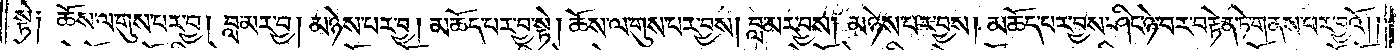སྟེ༑ ཆོས་ལ་གུས་པར་བྱ། བླ་མར་བྱ། མཉེས་པར་བྱ། མཆོད་པར་བྱ་སྟེ། ཆོས་ལ་གུས་པར་བྱས། བླ་མར་བྱས། མཉེས་པར་བྱས། མཆོད་པར་བྱས་ཤིང་ཉེ་བར་བརྟེན་ཏེ་གནས་པར་བྱའོ། །
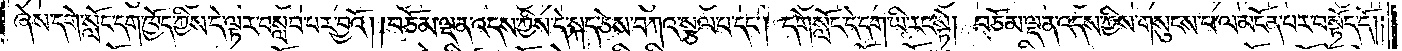ཞེས་དགེ་སློང་དག་ཁྱོད་ཀྱིས་དེ་ལྟར་བསླབ་པར་བྱའོ། །བཅོམ་ལྡན་འདས་ཀྱིས་དེ་སྐད་ཅེས་བཀའ་སྩལ་པ་དང༌། དགེ་སློང་དེ་དག་ཡི་རང་སྟེ། བཅོམ་ལྡན་འདས་ཀྱིས་གསུངས་པ་ལ་མངོན་པར་བསྟོད་དོ༎
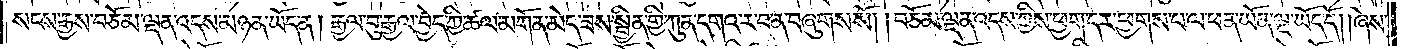སངས་རྒྱས་བཅོམ་ལྡན་འདས་མཉན་ཡོད་ན། རྒྱལ་བུ་རྒྱལ་བྱེད་ཀྱི་ཚལ་མགོན་མེད་ཟས་སྦྱིན་གྱི་ཀུན་དགའ་ར་བ་ན་བཞུགས་སོ། །བཅོམ་ལྡན་འདས་ཀྱིས་ཕྱག་དར་ཕྱགས་པ་ལ་ཕན་ཡོན་ལྔ་ཡོད་དོ། །ཞེས་
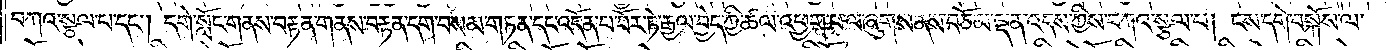བཀའ་སྩལ་པ་དང༌། དགེ་སློང་གནས་བརྟན་གནས་བརྟན་དག་བསམ་གཏན་དང་འདོན་པ་བོར་ཏེ་རྒྱལ་བྱེད་ཀྱི་ཚལ་འཕྱག་པ་ལ་ཞུགས་ནས་བཅོམ་ལྡན་འདས་ཀྱིས་བཀའ་སྩལ་པ། ངས་དགེ་བསྐོས་ལ་
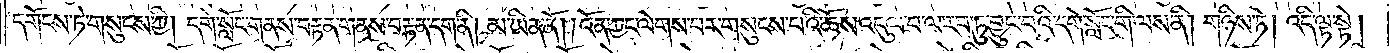དགོངས་ཏེ་གསུངས་ཀྱི། དགེ་སློང་གནས་བརྟན་གནས་བརྟན་དག་ནི། མ་ཡིན་ནོ། །འོན་ཀྱང་ལེགས་པར་གསུངས་པའི་ཆོས་འདུལ་བ་ལ་རབ་ཏུ་བྱུང་བའི་དགེ་སློང་གི་ལས་ནི། གཉིས་ཏེ། འདི་ལྟ་སྟེ།
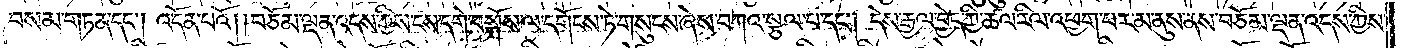བསམ་གཏན་དང༌། འདོན་པའོ། །བཅོམ་ལྡན་འདས་ཀྱིས་ངས་དགེ་བསྐོས་ལ་དགོངས་ཏེ་གསུངས་ཞེས་བཀའ་སྩལ་པ་དང༌། དེས་རྒྱལ་བྱེད་ཀྱི་ཚལ་རིལ་འཕྱག་པར་མ་ནུས་ནས་བཅོམ་ལྡན་འདས་ཀྱིས་
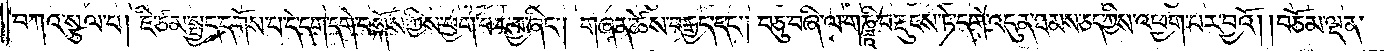བཀའ་སྩལ་པ། ཇི་ཙམ་སྤྱད་དགོས་པ་དེ་དག་དགེ་བསྐོས་ཀྱིས་ཕྱག་པར་བྱ་ཞིང༌། གཞན་ཚེས་བརྒྱད་དང༌། བཅུ་བཞི་ལ་གཎྜཱི་བརྡུངས་ཏེ་དགེ་འདུན་ཐམས་ཅད་ཀྱིས་འཕྱག་པར་བྱའོ། །བཅོམ་ལྡན་
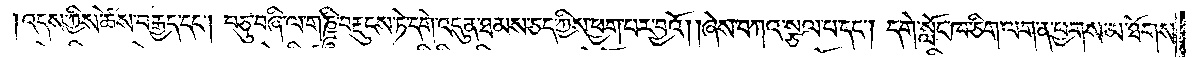འདས་ཀྱིས་ཚེས་བརྒྱད་དང༌། བཅུ་བཞི་ལ་གཎྜཱི་བརྡུངས་ཏེ་དགེ་འདུན་ཐམས་ཅད་ཀྱིས་ཕྱག་པར་བྱའོ། །ཞེས་བཀའ་སྩལ་པ་དང༌། དགེ་སློང་ཁ་ཅིག་ལག་ན་ཕྱགས་མ་ཐོགས་
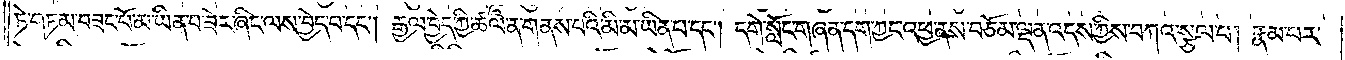ཏེ་གཏམ་བཟང་པོ་མ་ཡིན་པ་ཟེར་ཞིང་ལས་བྱེད་པ་དང༌། རྒྱལ་བྱེད་ཀྱི་ཚལ་ན་གནས་པའི་མི་མ་ཡིན་པ་དང༌། དགེ་སློང་གཞན་དག་ཀྱང་འཕྱ་ནས་བཅོམ་ལྡན་འདས་ཀྱིས་བཀའ་སྩལ་པ། རྣམ་པར་
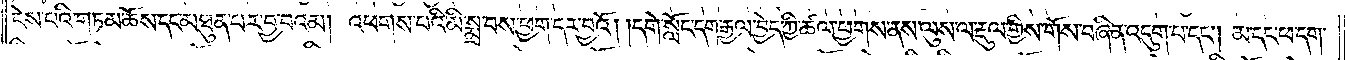ངེས་པའི་གཏམ་ཆོས་དང་མཐུན་པར་བྱ་བའམ། འཕགས་པའི་མི་སྨྲ་བས་ཕྱག་དར་བྱའོ། །དགེ་སློང་དག་རྒྱལ་བྱེད་ཀྱི་ཚལ་ཕྱགས་ནས་ལུས་ལ་རྡུལ་གྱིས་གོས་བཞིན་འདུག་པ་དང༌། མ་དང་ཕ་དག་
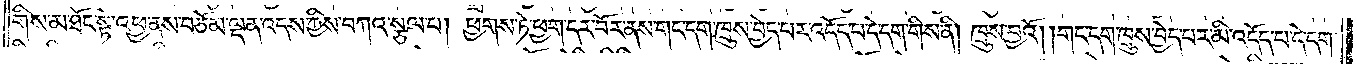གིས་མཐོང་སྟེ་འཕྱ་ནས་བཅོམ་ལྡན་འདས་ཀྱིས་བཀའ་སྩལ་པ། ཕྱགས་ཏེ་ཕྱག་དར་བོར་ནས་གང་དག་ཁྲུས་བྱེད་པར་འདོད་པ་དེ་དག་གིས་ནི། ཁྲུས་བྱའོ། །གང་དག་ཁྲུས་བྱེད་པར་མི་འདོད་པ་དེ་དག་
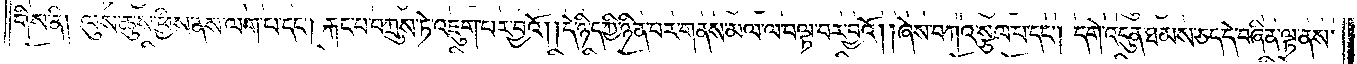གིས་ནི། ལུས་ཆུས་ཕྱིས་ནས་ལག་པ་དང༌། རྐང་པ་བཀྲུས་ཏེ་འཇུག་པར་བྱའོ། །དེ་ཉིད་ཀྱི་ཉིན་པར་གནས་མལ་ལ་བལྟ་བར་བྱའོ། །ཞེས་བཀའ་སྩལ་པ་དང༌། དགེ་འདུན་ཐམས་ཅད་དེ་བཞིན་ལྟ་ནས་
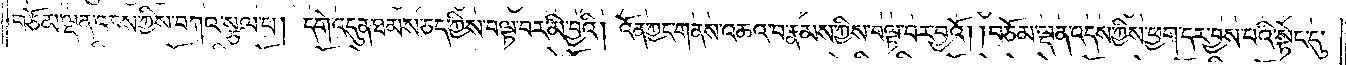བཅོམ་ལྡན་འདས་ཀྱིས་བཀའ་སྩལ་པ། དགེ་འདུན་ཐམས་ཅད་ཀྱིས་བལྟ་བར་མི་བྱའི། འོན་ཀྱང་གནས་འཆའ་བ་རྣམས་ཀྱིས་བལྟ་བར་བྱའོ། །བཅོམ་ལྡན་འདས་ཀྱིས་ཕྱག་དར་བྱས་པའི་སྟེང་དུ་
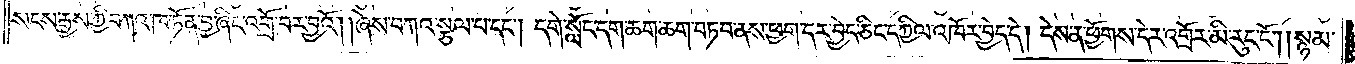སངས་རྒྱས་ཀྱི་བཀའ་ཁ་ཏོན་བྱ་ཞིང་འགྲོ་བར་བྱའོ། །ཞེས་བཀའ་སྩལ་པ་དང༌། དགེ་སློང་དག་ཆག་ཆག་བཏབ་ནས་ཕྱག་དར་བྱེད་ཅིང་དཀྱིལ་འཁོར་བྱེད་དེ། དེས་ན་ཕྱོགས་དེར་འགྲོར་མི་རུང་ངོ༌། །སྙམ་
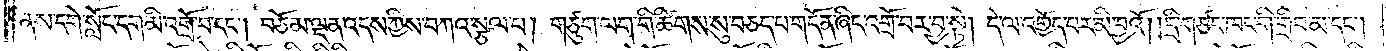ནས་དགེ་སློང་དག་མི་འགྲོ་བ་དང༌། བཅོམ་ལྡན་འདས་ཀྱིས་བཀའ་སྩལ་པ། གཙུག་ལག་གི་ཚིགས་སུ་བཅད་པ་གདོན་ཞིང་འགྲོ་བར་བྱ་སྟེ། དེ་ལ་འགྱོད་པར་མི་བྱའོ། །དྲི་གཙང་ཁང་གི་གྲིབ་མ་དང༌།
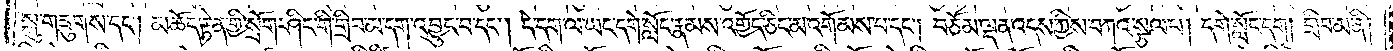སྐུ་གཟུགས་དང༌། མཆོད་རྟེན་གྱི་སྲོག་ཤིང་གི་གྲིབ་མ་དག་འབྱུང་བ་དང༌། དེ་དག་ལ་ཡང་དགེ་སློང་རྣམས་འགྱོད་ཅིང་མ་འགོམས་པ་དང༌། བཅོམ་ལྡན་འདས་ཀྱིས་བཀའ་སྩལ་པ། དགེ་སློང་དག །གྲིབ་མ་ནི།
